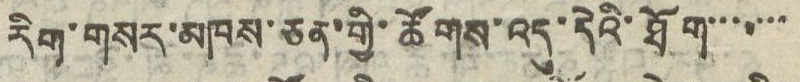རིག་གསར་མཁས་ཅན་གྱི་ཚོགས་འདུ་དེའི་ཐོག་་་་་་་
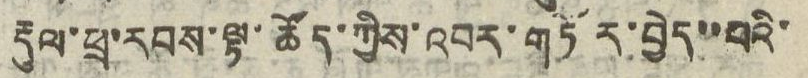རྡུལ་ཕྲ་རབས་ལྟ་ཚོད་ཀྱིས་འབར་གཏོད་བྱེད་་པའི་
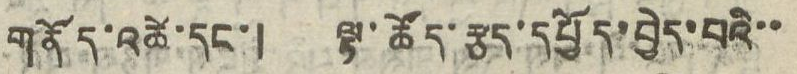གནོད་འཚེ་དང་། ལྟ་ཚོད་རྩད་དཔྱོད་བྱེད་པའི་་
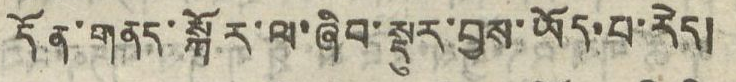དོན་གནད་སྐོར་ལ་ཞིབ་སྡུར་བྱས་ཡོད་པ་རེད།
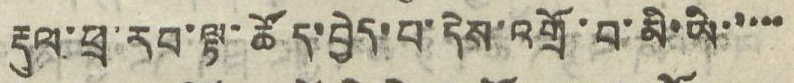རྡུལ་ཕྲ་རབ་ལྟ་ཚོད་བྱེད་པ་དེས་འགྲོ་བ་མི་ཡི་་་་་
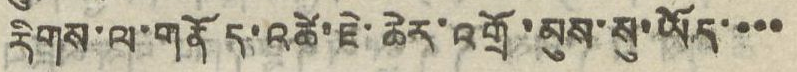རིགས་ལ་གནོད་འཚེ་ཇེ་ཆེར་འགྲོ་མུས་སུ་ཡོད་་་་
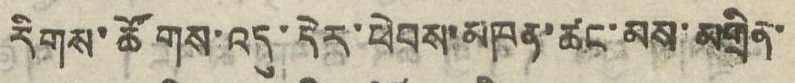རིགས་ཚོགས་འདུ་དེར་ཕེབས་མཁན་ཚང་མས་མགྲིན་
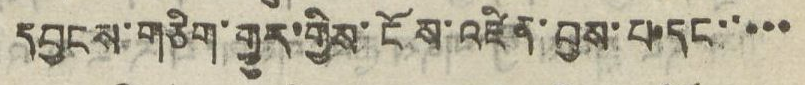དབྱངས་གཅིག་གྱུར་གྱིས་ངོས་འཛིན་བྱས་པ་དང་་་་་
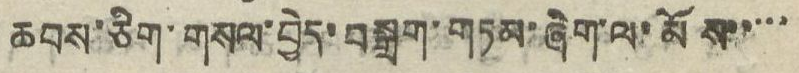ཆབས་ཅིག་གསལ་བྱེད་བསྒྲག་གཏམ་ཞིག་ལ་མོས་་་་་
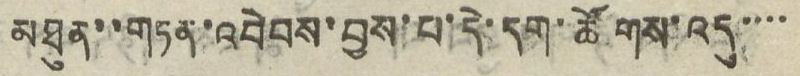མཐུན་་གཏན་འབེབས་བྱས་པ་དེ་དག་ཚོགས་འདུ་་་་
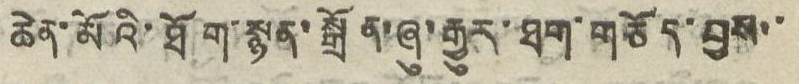ཆེན་མོའི་ཐོག་སྙན་སྒྲོན་ཞུ་རྒྱུར་ཐག་གཅོད་བྱས་་
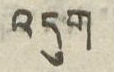འདུག
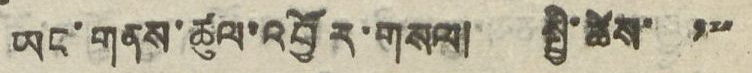ཡང་གནས་ཚུལ་འབྱོར་གསལ། སྤྱི་ཚེས་ ༡༧
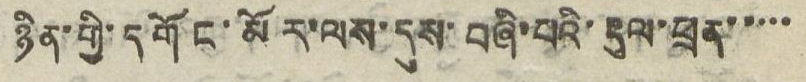ཉིན་གྱི་དགོང་མོར་ལས་དུས་བཞི་པའི་རྡུལ་ཕྲན་་་་་
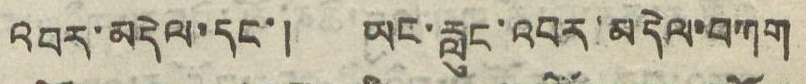འབར་མདེལ་དང་། ཡང་རླུང་འབར་མདེལ་བཀག
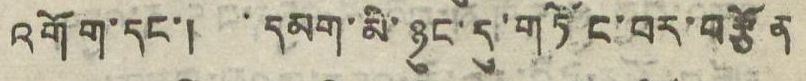འགོག་དང་། དམག་མི་ཉུང་དུ་གཏོང་བར་བརྩོན
